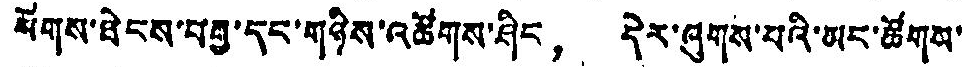སོགས་ཐེངས་བརྒྱ་དང་གཉིས་འཚོགས་ཤིང， དེར་ཞུགས་པའི་མང་ཚོགས་
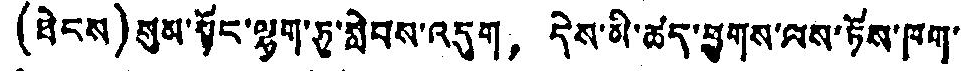(ཐེངས) སུམ་སྟོང་ལྷག་ཏུ་སླེབས་འདུག， དེས་མི་ཚད་ཕྱུགས་ལས་ཏོས་ཁག་
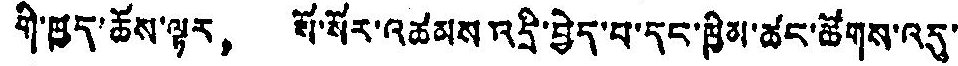གི་ཁྱད་ཆོས་ལྟར， སོ་སོར་འཚམས་འདྲི་བྱེད་པ་དང་ཁྱིམ་ཚང་ཚོགས་འདུ་
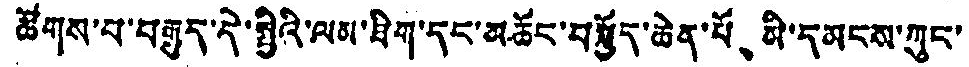ཚོགས་པ་བརྒྱུད་དེ་སྤྱིའི་ལམ་ཐིག་དང་མཆོང་བསྐྱོད་ཆེན་པོ、 མི་དམངས་ཀུང་
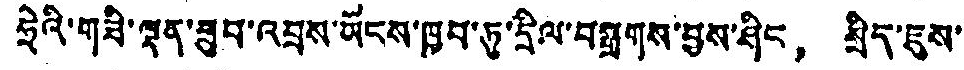ཧྲེའི་གཟི་ལྡན་ཐུབ་འབྲས་ཡོངས་ཁྱབ་ཏུ་དྲིལ་བསྒྲགས་བྱས་ཤིང， སྲིད་ཇུས་
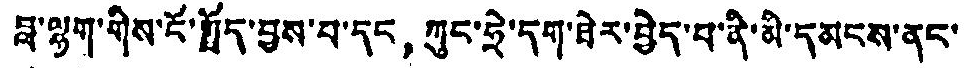བླ་ལྷག་གིས་ངོ་སྤྲོད་བྱས་པ་དང ཀུང་ཧྲེ་དག་ཐེར་བྱེད་པ་ནི་མི་དམངས་ནང་
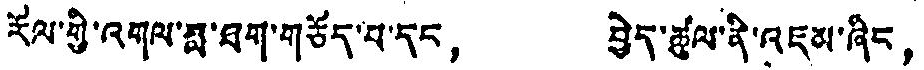རོལ་གྱི་འགལ་ཟླ་ཐག་གཅོད་པ་དང， བྱེད་ཚུལ་ནི་འཇམ་ཞིང，
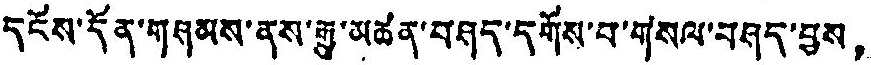དངོས་དོན་གཤམས་ནས་རྒྱུ་མཚན་བཤད་དགོས་པ་གསལ་བཤད་བྱས，
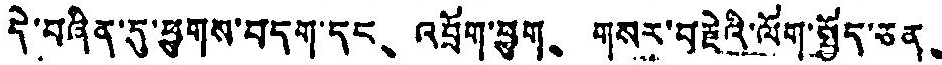དེ་བཞིན་དུ་ཕྱུགས་བདག་དང、 འབྲོག་བྱུག、 གསར་བརྗེའི་ལོག་སྤྱོད་ཅན、
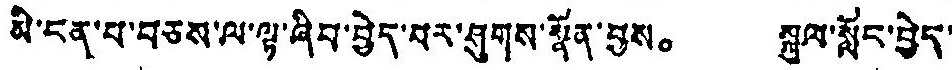མི་ངན་པ་བཅས་ལ་ལྟ་ཞིབ་བྱེད་པར་ཤུགས་སྣོན་བྱས。 སྐུལ་སློང་བྱེད་
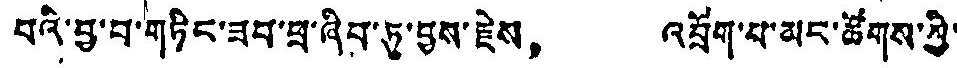པའི་བྱ་བ་གཏིང་ཟབ་ཕྲ་ཞིབ་ཏུ་བྱས་རྗེས， འབྲོག་པ་མང་ཚོགས་ཀྱི་
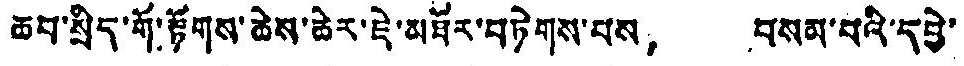ཆབ་སྲིད་གོ་རྟོགས་ཆེས་ཆེར་ཇེ་མཐོར་བཏེགས་པས， བསམ་པའི་དབྱེ་
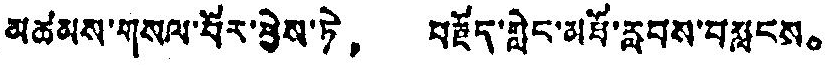མཚམས་གསལ་བོར་ཕྱེས་ཏེ， བརྗོད་གླེང་མཐོ་རླབས་བསླངས。
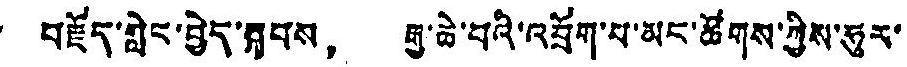བརྗོད་གླེང་བྱེད་སྐབས， རྒྱ་ཆེ་བའི་འབྲོག་པ་མང་ཚོགས་ཀྱིས་ཧུར་
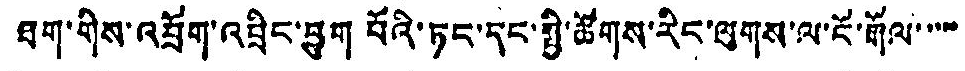ཐག་གིས་འབྲོག་འབྲིང་ཕྱུག པོའི་ཏང་དང་སྤྱི་ཚོགས་རིང་ལུགས་ལ་ངོ་རྒོལ་་་་་་
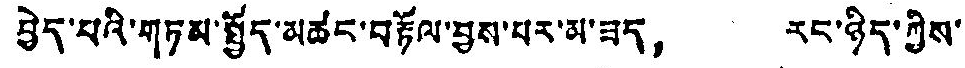བྱེད་པའི་གཏམ་སྤྱོད་མཚང་བརྟོལ་བྱས་པར་མ་ཟད， རང་ཉིད་ཀྱིས་
